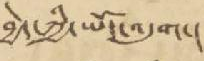བྱེད་ཀྱི་ཡོད་འདུག་།
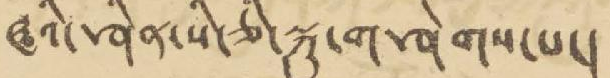ཝའི་ཤིན་སི་ཅི་སྐུ་གཤེགས་པ་།
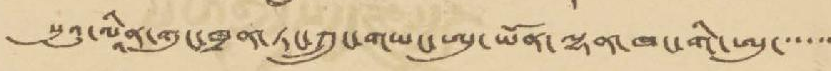sཨུའུ་ལཱིན་གུང་ཁྲན་ཏང་ཀྲུང་གཡང་ཨུ་ཡོན་ལྷན་ཁང་གི་ཨུ་་་་་་
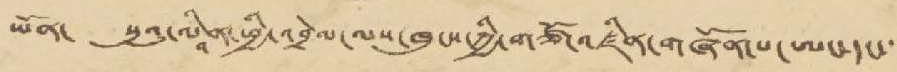ཡོན་ སུའུ་ལཱིན་ཕྱི་འབྲེལ་ལས་ཁུངས་ཀྱི་གཙོང་འཛིན་གཞོན་པ་ཨང་དང་་་
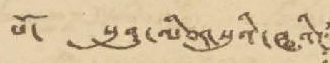པོ་ སུའུ་ལིན་སུའི་ཝའི་
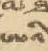ཨའི་
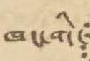ཁང་གི་
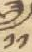༡༡
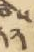༢༢
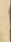།
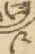༩
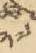༢༧
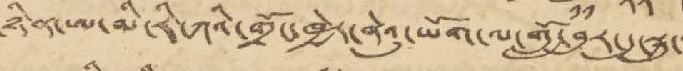ཉིན་ཨ་མི་རི་ཀའི་གྲོང་ཁྱེར་ནེའུ་ཡོག་ལ་གློ་བུར་དུ་སྐུ་
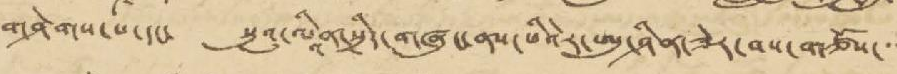གཤེགས་པ་དང་ སུའུ་ལཱིན་སྲིད་གཞུང་ནས་ཕིའེར་ཨུ་ཤིན་ཟེར་བས་གཙོས་་་
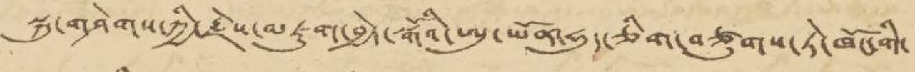སྐུ་གཤེགས་ཀྱི་རྗེས་མཇུག་བྱེད་སྒོའི་ཨུ་ཡོན་ཧུད་ཅིག་བཙུགས་ཏེ་ཁོང་གི་
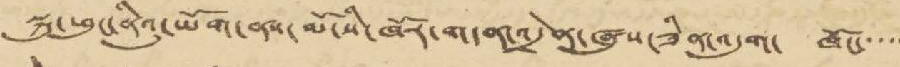སྐུ་ཕུང་ནིའུ་ཡོག་ནས་མོ་སི་ཁོར་གདན་འདྲེན་ཞུས་ཟིན་འདུག་ ཁོང་་་་་
